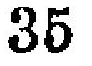35
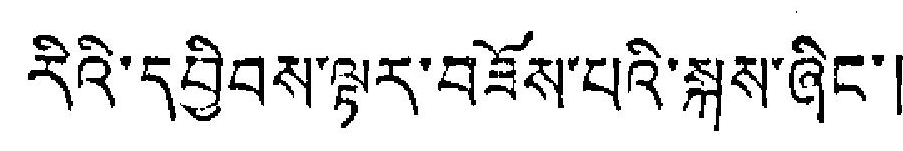རིའི་དབྱིབས་ལྟར་བཟོས་པའི་སྐས་ཞིང་།
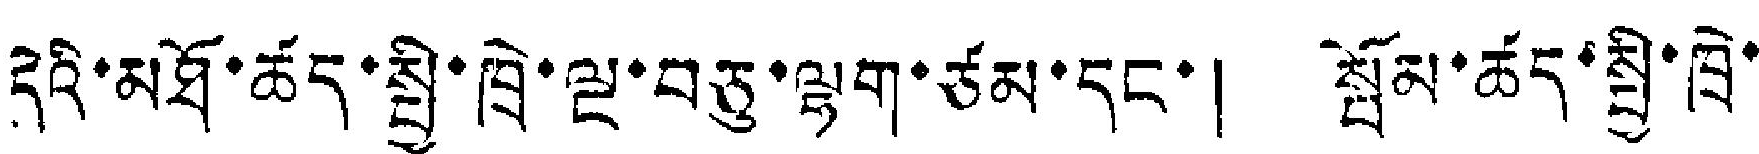དེའི་མཐོ་ཚད་སྤྱི་ཁྲེ་ལྔ་བཅུ་ལྷག་ཙམ་དང་། སྤོམ་ཚད་སྤྱི་ཁྲེ་
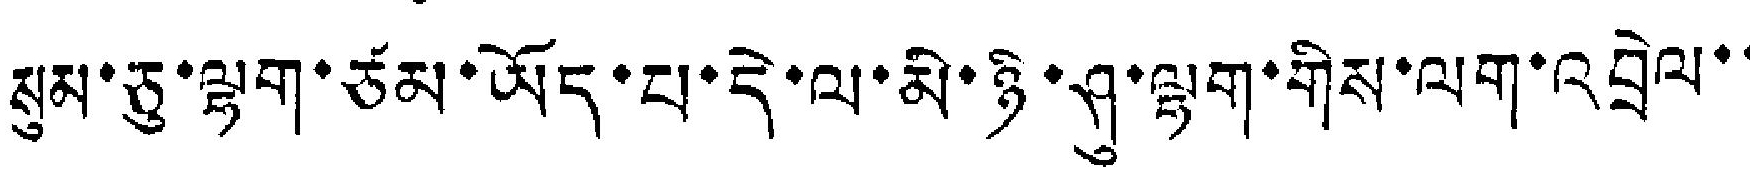སུམ་ཅུ་ལྷག་ཙམ་ཡོད་པ་དེ་ལ་མི་ཉི་ཤུ་ལྷག་གིས་ལག་འབྲེལ་་
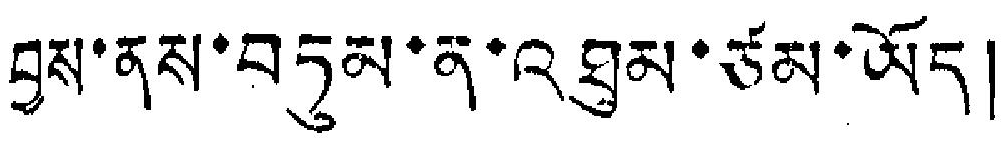བྱས་ནས་བཏུམ་ན་འཐུམ་ཙམ་ཡོད།
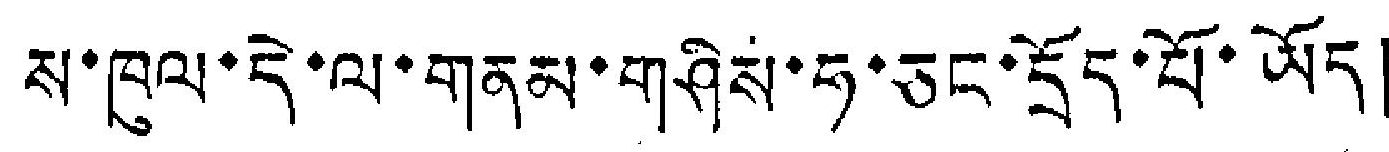ས་ཁུལ་དེ་ལ་གནམ་གཤིས་ཧ་ཅང་དྲོད་པོ་ཡོད།
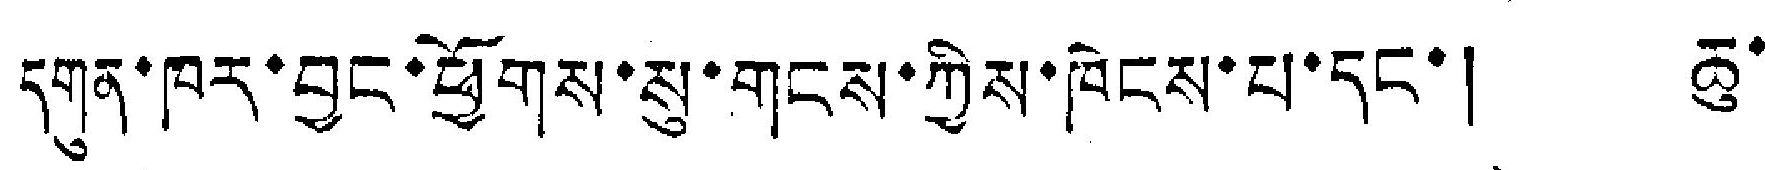དགུན་ཁུར་བྱང་ཕྱོགས་སུ་གངས་ཀྱིས་ཁེངས་པ་དང་། ཆུ་
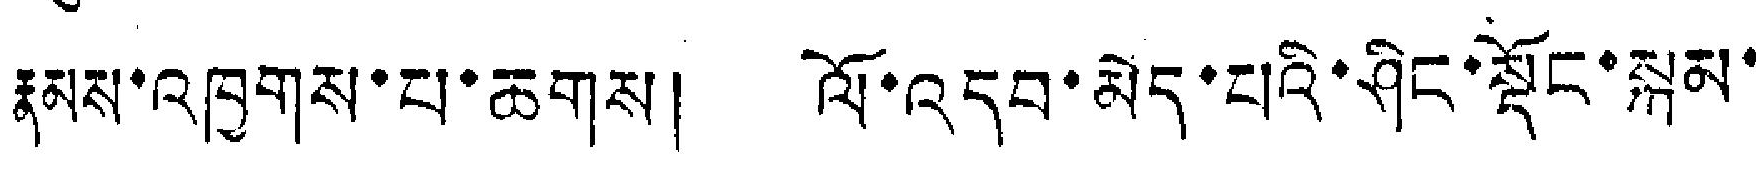རྣམས་འཁྱགས་པ་ཆགས། ལོ་འདབ་མེད་པའི་ཤིང་སྡོང་སྐམ་
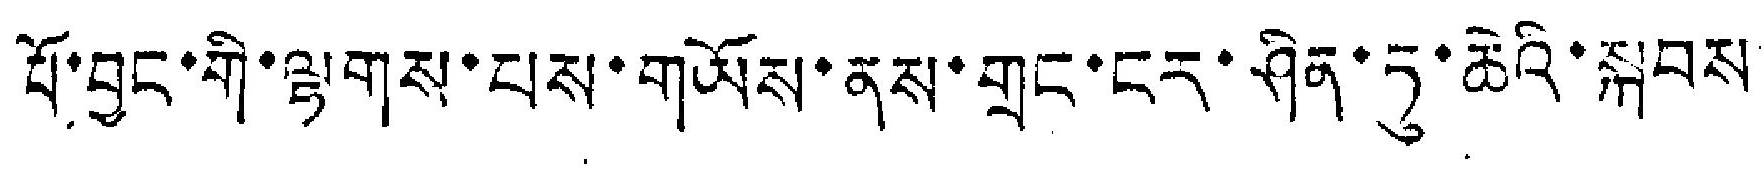པོ་བྱང་གི་ལྷགས་པས་གཡོས་ནས་གྲང་ངར་ཤིན་ཏུ་ཆེའི་སྐབས་
